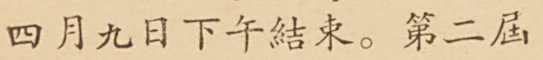四月九日下午結束。第二屆
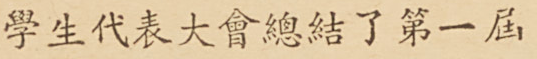學生代表大會總結了第一屆
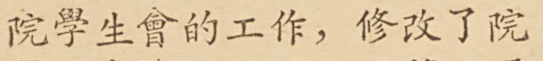院學生會的工作，修改了院
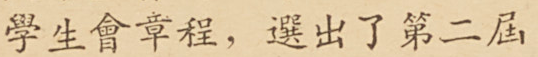學生會章程，選出了第二屆
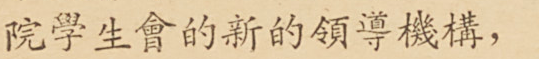院學生會的新的領導機構，
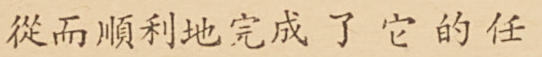從而順利地完成了它的任
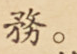務。
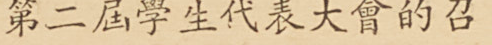第二屆學生代表大會的召
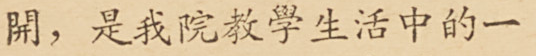開，是我院教學生活中的一
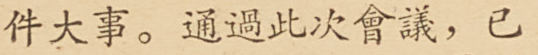件大事。通過此次會議，已
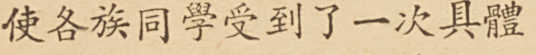使各族同學受到了一次具體
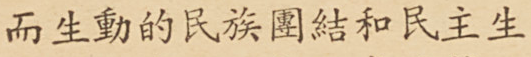而生動地民族團結和民主生
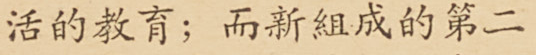活的教育；而新組成的第二
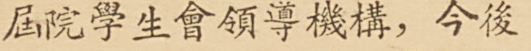屆院學生會領導機構，今後
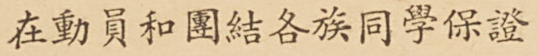在動員和團結各族同學保證
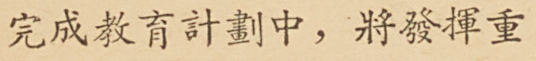完成敎育計劃中，將發揮重
